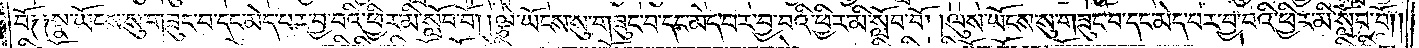བོ༑ ༑སྣ་ཡོངས་སུ་གཟུང་བ་དང་མེད་པར་བྱ་བའི་ཕྱིར་མི་སློབ་བོ། །ལྕེ་ཡོངས་སུ་གཟུང་བ་དང་མེད་པར་བྱ་བའི་ཕྱིར་མི་སློབ་བོ། །ལུས་ཡོངས་སུ་གཟུང་བ་དང་མེད་པར་བྱ་བའི་ཕྱིར་མི་སློབ་བོ༎
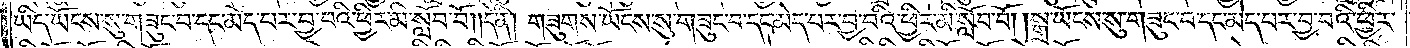ཡིད་ཡོངས་སུ་གཟུང་བ་དང་མེད་པར་བྱ་བའི་ཕྱིར་མི་སློབ་བོ། །དེ་ནི། གཟུགས་ཡོངས་སུ་གཟུང་བ་དང་མེད་པར་བྱ་བའི་ཕྱིར་མི་སློབ་བོ། །སྒྲ་ཡོངས་སུ་གཟུང་བ་དང་མེད་པར་བྱ་བའི་ཕྱིར་
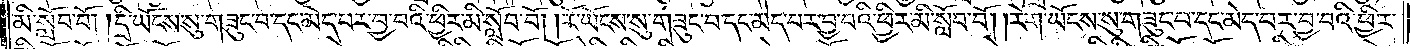མི་སློབ་བོ། །དྲི་ཡོངས་སུ་གཟུང་བ་དང་མེད་པར་བྱ་བའི་ཕྱིར་མི་སློབ་བོ། །རོ་ཡོངས་སུ་གཟུང་བ་དང་མེད་པར་བྱ་བའི་ཕྱིར་མི་སློབ་བོ། །རེག་ཡོངས་སུ་གཟུང་བ་དང་མེད་པར་བྱ་བའི་ཕྱིར་
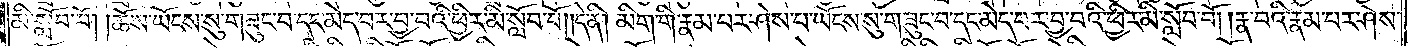མི་སློབ་བོ། །ཆོས་ཡོངས་སུ་གཟུང་བ་དང་མེད་པར་བྱ་བའི་ཕྱིར་མི་སློབ་བོ། །དེ་ནི། མིག་གི་རྣམ་པར་ཤེས་པ་ཡོངས་སུ་གཟུང་བ་དང་མེད་པར་བྱ་བའི་ཕྱིར་མི་སློབ་བོ། །རྣ་བའི་རྣམ་པར་ཤེས་
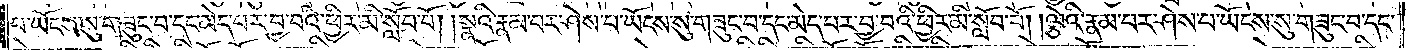པ་ཡོངས་སུ་གཟུང་བ་དང་མེད་པར་བྱ་བའི་ཕྱིར་མི་སློབ་བོ། །སྣའི་རྣམ་པར་ཤེས་པ་ཡོངས་སུ་གཟུང་བ་དང་མེད་པར་བྱ་བའི་ཕྱིར་མི་སློབ་བོ། །ལྕེའི་རྣམ་པར་ཤེས་པ་ཡོངས་སུ་གཟུང་བ་དང་
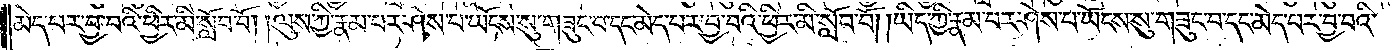མེད་པར་བྱ་བའི་ཕྱིར་མི་སློབ་བོ། །ལུས་ཀྱི་རྣམ་པར་ཤེས་པ་ཡོངས་སུ་གཟུང་བ་དང་མེད་པར་བྱ་བའི་ཕྱིར་མི་སློབ་བོ། །ཡིད་ཀྱི་རྣམ་པར་ཤེས་པ་ཡོངས་སུ་གཟུང་བ་དང་མེད་པར་བྱ་བའི་
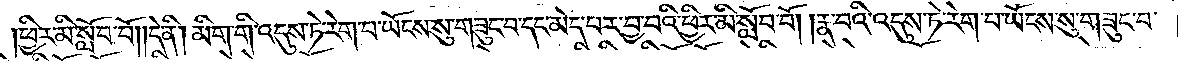ཕྱིར་མི་སློབ་བོ། །དེ་ནི། མིག་གི་འདུས་ཏེ་རེག་པ་ཡོངས་སུ་གཟུང་བ་དང་མེད་པར་བྱ་བའི་ཕྱིར་མི་སློབ་བོ། །རྣ་བའི་འདུས་ཏེ་རེག་པ་ཡོངས་སུ་གཟུང་བ་
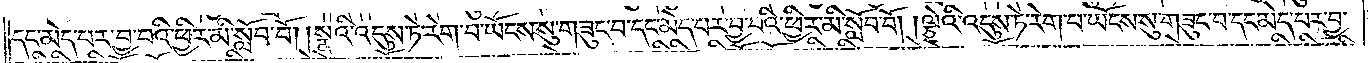དང་མེད་པར་བྱ་བའི་ཕྱིར་མི་སློབ་བོ། །སྣའི་འདུས་ཏེ་རེག་པ་ཡོངས་སུ་གཟུང་བ་དང་མེད་པར་བྱ་བའི་ཕྱིར་མི་སློབ་བོ། །ལྕེའི་འདུས་ཏེ་རེག་པ་ཡོངས་སུ་གཟུང་བ་དང་མེད་པར་བྱ་
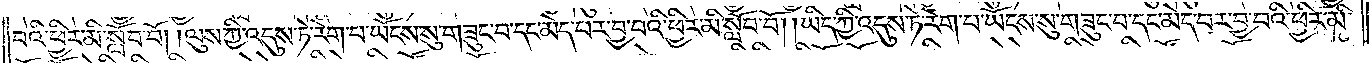བའི་ཕྱིར་མི་སློབ་བོ། །ལུས་ཀྱི་འདུས་ཏེ་རེག་པ་ཡོངས་སུ་གཟུང་བ་དང་མེད་པར་བྱ་བའི་ཕྱིར་མི་སློབ་བོ། །ཡིད་ཀྱི་འདུས་ཏེ་རེག་པ་ཡོངས་སུ་གཟུང་བ་དང་མེད་པར་བྱ་བའི་ཕྱིར་མི་
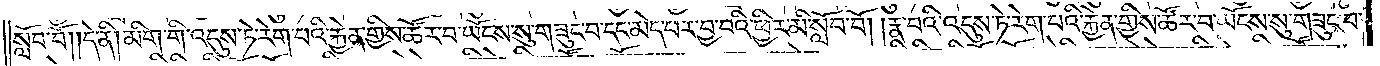སློབ་བོ། །དེ་ནི། མིག་གི་འདུས་ཏེ་རེག་པའི་རྐྱེན་གྱིས་ཚོར་བ་ཡོངས་སུ་གཟུང་བ་དང་མེད་པར་བྱ་བའི་ཕྱིར་མི་སློབ་བོ། །རྣ་བའི་འདུས་ཏེ་རེག་པའི་རྐྱེན་གྱིས་ཚོར་བ་ཡོངས་སུ་གཟུང་བ་
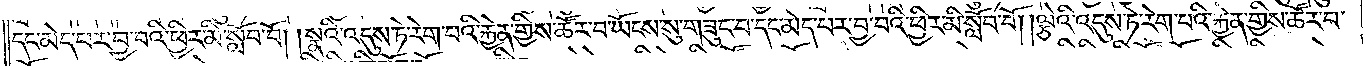དང་མེད་པར་བྱ་བའི་ཕྱིར་མི་སློབ་བོ། །སྣའི་འདུས་ཏེ་རེག་པའི་རྐྱེན་གྱིས་ཚོར་བ་ཡོངས་སུ་གཟུང་བ་དང་མེད་པར་བྱ་བའི་ཕྱིར་མི་སློབ་བོ། །ལྕེའི་འདུས་ཏེ་རེག་པའི་རྐྱེན་གྱིས་ཚོར་བ་
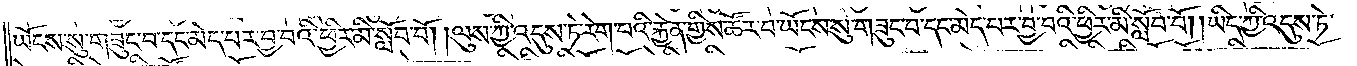ཡོངས་སུ་གཟུང་བ་དང་མེད་པར་བྱ་བའི་ཕྱིར་མི་སློབ་བོ། །ལུས་ཀྱི་འདུས་ཏེ་རེག་པའི་རྐྱེན་གྱིས་ཚོར་བ་ཡོངས་སུ་གཟུང་བ་དང་མེད་པར་བྱ་བའི་ཕྱིར་མི་སློབ་བོ། །ཡིད་ཀྱི་འདུས་ཏེ་
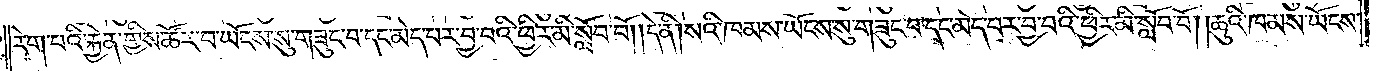རེག་པའི་རྐྱེན་གྱིས་ཚོར་བ་ཡོངས་སུ་གཟུང་བ་དང་མེད་པར་བྱ་བའི་ཕྱིར་མི་སློབ་བོ། །དེ་ནི། སའི་ཁམས་ཡོངས་སུ་གཟུང་བ་དང་མེད་པར་བྱ་བའི་ཕྱིར་མི་སློབ་བོ། །ཆུའི་ཁམས་ཡོངས་
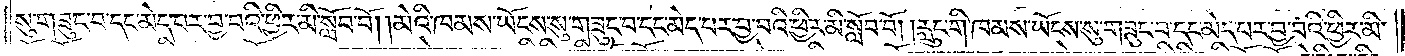སུ་གཟུང་བ་དང་མེད་པར་བྱ་བའི་ཕྱིར་མི་སློབ་བོ། །མེའི་ཁམས་ཡོངས་སུ་གཟུང་བ་དང་མེད་པར་བྱ་བའི་ཕྱིར་མི་སློབ་བོ། ། རླུང་གི་ཁམས་ཡོངས་སུ་གཟུང་བ་དང་མེད་པར་བྱ་བའི་ཕྱིར་མི་
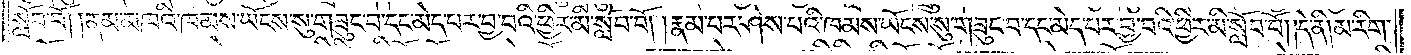སློབ་བོ། །ནམ་མཁའི་ཁམས་ཡོངས་སུ་གཟུང་བ་དང་མེད་པར་བྱ་བའི་ཕྱིར་མི་སློབ་བོ། །རྣམ་པར་ཤེས་པའི་ཁམས་ཡོངས་སུ་གཟུང་བ་དང་མེད་པར་བྱ་བའི་ཕྱིར་མི་སློབ་བོ། །དེ་ནི། མ་རིག་
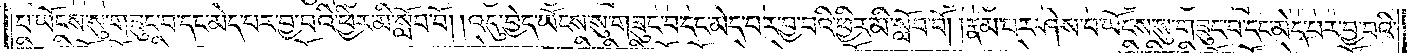པ་ཡོངས་སུ་གཟུང་བ་དང་མེད་པར་བྱ་བའི་ཕྱིར་མི་སློབ་བོ། །འདུ་བྱེད་ཡོངས་སུ་གཟུང་བ་དང་མེད་པར་བྱ་བའི་ཕྱིར་མི་སློབ་བོ། །རྣམ་པར་ཤེས་པ་ཡོངས་སུ་གཟུང་བ་དང་མེད་པར་བྱ་བའི་
